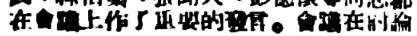在會議上作了重要的發言。會議在討論
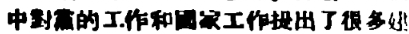中對黨的工作和國家工作提出了很多建
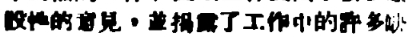設性的意見，並揭露了工作中的許多缺
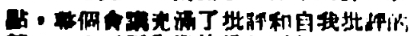點，整個會議充滿了批評和自我批評的
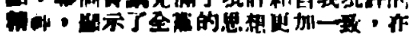精神，顯示了全黨的思想更加一致，在
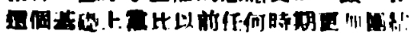這個基礎上黨比以前任何時期更加團結
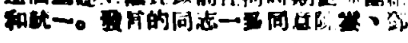和統一。發言的同志一致同意陳雲、鄧
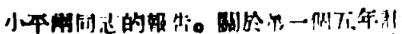小平兩同志的報告。關於第一個五年計
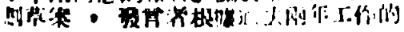劃草案 ，發言者根據過去兩年工作的
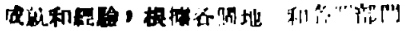成就和經驗，根據各個地區和各個部門
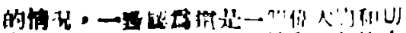的情況，一致認爲這是一個偉大的和切
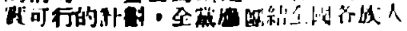實可行的計劃，全黨應團結全國各族人
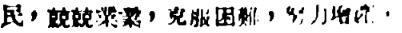民，兢兢業業，克服困難，努力增產，
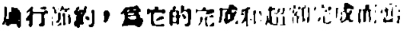厲行節約，爲它的完成和超額完成而奮
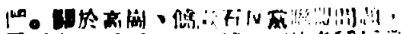鬥。關於高崗、饒漱石反黨聯盟問題，
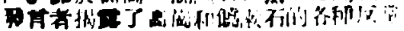發言者揭露了高崗和饒漱石的各種反黨
